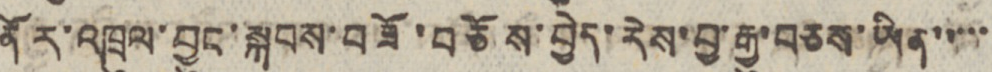ནོར་འཁྲུལ་བྱུང་སྐབས་བཟོ་བཅོས་བྱེད་རེས་བྱ་རྒྱུ་བཅས་ཡིན་་་་་
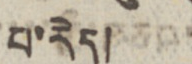པ་རེད།
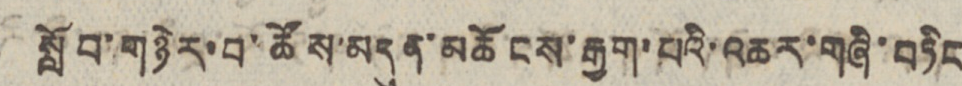སློབ་གཉེར་བ་ཚོས་མདུན་མཆོངས་རྒྱག་པའི་འཆར་གཞི་བཏིང
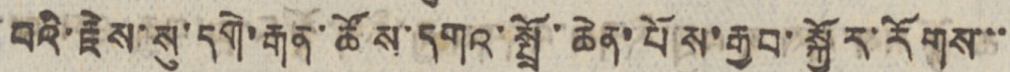བའི་རྗེས་སུ་དགེ་རྒན་ཚོས་དགའ་སྤྲོ་ཆེན་པོས་རྒྱབ་སྐྱོར་རོགས་་་
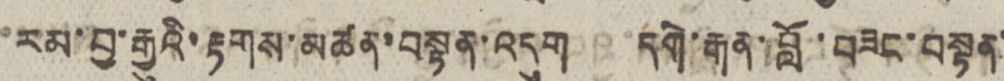རམ་བྱ་རྒྱུའི་རྟགས་མཚན་བསྟན་འདུག དགེ་རྒན་བློ་བཟང་བསྟན་
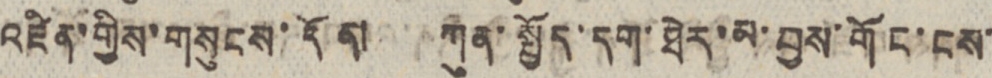འཛིན་གྱིས་གསུངས་དོན། ཀུན་སྤྱོད་དག་ཐེར་མ་བྱས་གོང་ངས་
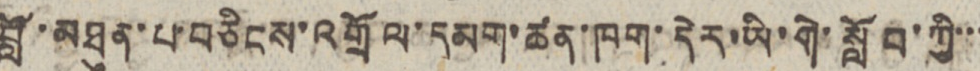བློ་མཐུན་པ་བཅིངས་འགྲོལ་དམག་ཚན་ཁག་དེར་ཡི་གེ་སློབ་ཀྱི་་་
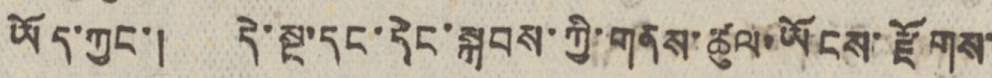ཡོད་ཀྱང་། དེ་སྔ་དང་དེང་སྐབས་ཀྱི་གནས་ཚུལ་ཡོངས་རྫོགས་
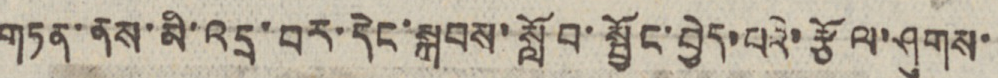གཏན་ནས་མི་འདྲ་བར་དེང་སྐབས་སློབ་སྦྱོང་བྱེད་པའི་རྩོལ་ཤུགས་
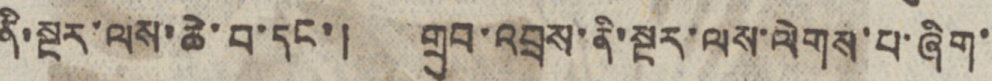ནི་སྔར་ལས་ཆེ་བ་དང་། གྲུབ་འབྲས་ནི་སྔར་ལས་ལེགས་པ་ཞིག་
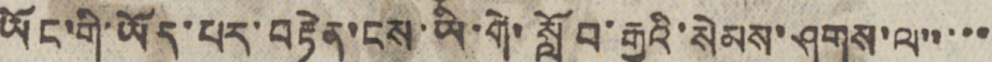ཡོང་གི་ཡོད་པར་བརྟེན་ངས་ཡི་གེ་སློབ་རྒྱུའི་སེམས་ཤུགས་ལ་་་་་
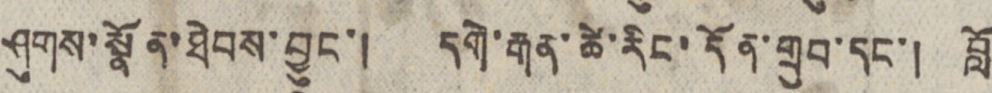ཤུགས་སྣོན་ཐེབས་བྱུང་། དགེ་རྒན་ཚེ་རིང་དོན་གྲུབ་དང་། བློ
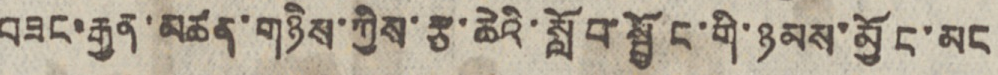བཟང་རྒྱན་མཚན་གཉིས་ཀྱིས་རྩ་ཆེའི་སློབ་སྦྱོང་གི་ཉམས་མྱོང་མང
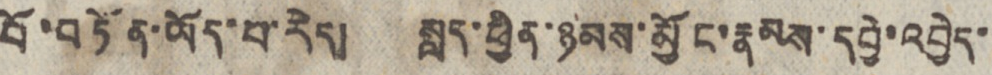པོ་བཏོན་ཡོད་པ་རེད། སླད་ཕྱིན་ཉམས་མྱོང་རྣམས་དབྱེ་འབྱེད་
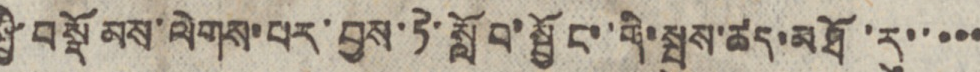སྤྱི་བསྡོམས་ལེགས་པར་བྱས་ཏེ་སློབ་སྦྱོང་གི་སྦུས་ཚད་མཐོ་རུ་་་་་
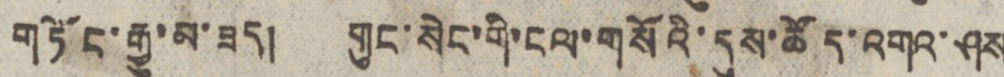གཏོང་རྒྱུ་མ་ཟད། གུང་སེང་གི་ངལ་གསོའི་དུས་ཚོད་འགའ་ཤས
